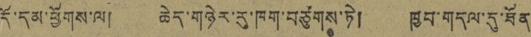དོ་དམ་ཕྱོགས་ལ། ཆེད་གཉེར་རུ་ཁག་བཙུགས་ཏེ། ཁྱབ་གདལ་དུ་ཐོན་
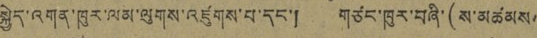སྐྱེད་འགན་ཁུར་ལམ་ལུགས་འཛུགས་པ་དང་། གཙང་ཁུར་བཞི་(ས་མཚམས
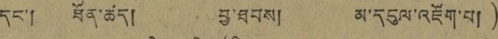དང་། ཐོན་ཚད། བྱ་ཐབས། མ་དངུལ་འཇོག་པ།)
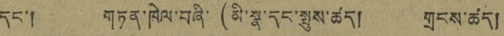དང་། གཏན་ཁེལ་བཞི་(མི་སྣ་དང་སྤུས་ཚད། གྲངས་ཚད།
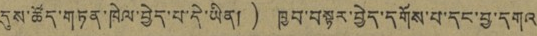དུས་ཚོད་གཏན་ཁེལ་བྱེད་པ་དེ་ཡིན།) ཁྱབ་བསྟར་བྱེད་དགོས་པ་དང་བྱ་དགའ
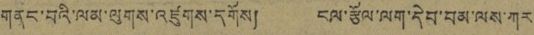གནང་བའི་ལམ་ལུགས་འཛུགས་དགོས། ངལ་རྩོལ་ལག་དེབ་བམ་ལས་ཀར་
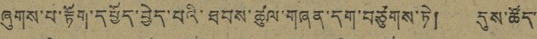ཞུགས་བ་རྟོག་དཔྱོད་བྱེད་པའི་ཐབས་ཚུལ་གཞན་དག་བཙུགས་ཏེ། དུས་ཚོད
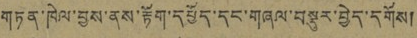གཏན་ཁེལ་བྱས་ནས་རྟོག་དཔྱོད་དང་གཞལ་བསྡུར་བྱེད་དགོས།
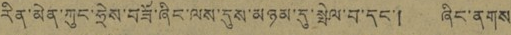རིན་མེན་ཀུང་ཧྲེས་བཟོ་ཞིང་ལས་དུས་མཉམ་དུ་སྤེལ་བ་དང་། ཞིང་ནགས
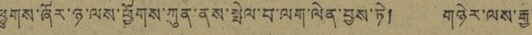ཕྱུགས་ཞོར་ཉ་ལས་ཕྱོགས་ཀུན་ནས་སྤེལ་བ་ལག་ལེན་བྱས་ཏེ། གཉེར་ལས་རྒྱ་
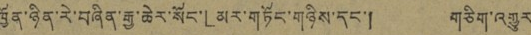ཁྱོན་ཉིན་རེ་བཞིན་རྒྱ་ཆེར་སོང་「མར་གཏོང་གཉིས་དང་། གཅིག་འགྱུར་
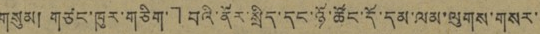གསུམ། གཙང་ཁུར་གཅིག་」བའི་ནོར་སྲིད་དང་ཉོ་ཚོང་དོ་དམ་ལམ་ལུགས་གསར་
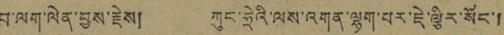བ་ལག་ལེན་བྱས་རྗེས། ཀུང་ཧྲེའི་ལས་འགན་ལྷག་པར་ཇེ་ལྕིར་སོང་།
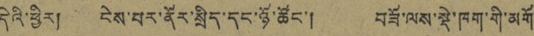དེའི་ཕྱིར། ངེས་པར་ནོར་སྲིད་དང་ཉོ་ཚོང་། བཟོ་ལས་སྡེ་ཁག་གི་མགོ་
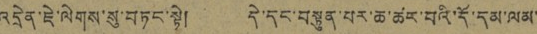འདྲེན་ཇེ་ལེགས་སུ་བཏང་སྟེ། དེ་དང་བསྟུན་པར་ཆ་ཚང་བའི་དོ་དམ་ལམ་
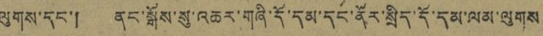ལུགས་དང་། ནང་སྒོས་སུ་འཆར་གཞི་དོ་དམ་དང་ནོར་སྲིད་དོ་དམ་ལམ་ལུགས
